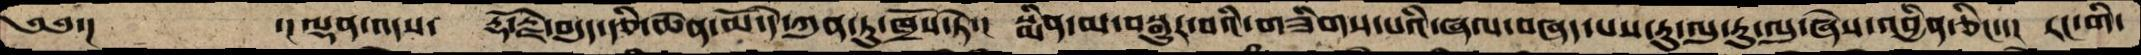༄༅་།         ་།ལྡན་འདས་ རྡོ་རྗེ་བདུད་རྩི་ཆེན་མོ་དེ་ཀུན་ཏུ་ཁྲོས་ཏེ་།  སྨིན་མ་བསྒྱུར་བའི་གཟིགས་པའི་ཞལ་བཞད་པས་རུ་ལུ་རུ་ལུ་ཞེས་འབྱིན་ཅིང་་།  རང་གི་
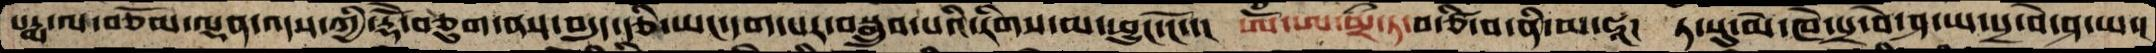པདྨ་ལ་བཅོམ་ལྡན་འདས་ཀྱི་རྡོེ་བཅུག་ནས་བདུད་རྩི་ཡང་དག་པར་བསྒྲུབ་པའི་རིགས་མ་ཕྱུང་ངོ་་།  ཨོཾ་ཨ་མྲྀ་ཏ་བ་ཙི་བ་ནི་མ་ཧཱ།  ཏ་སུ་མེ་ཁེ་པྲ་བེ་ཤ་ཡ་པྲ་བེ་ཤ་ཡ་།
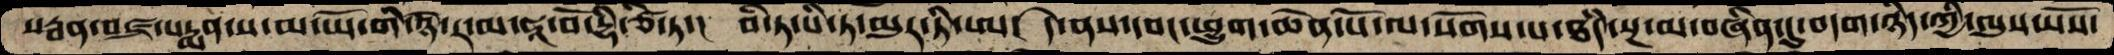སརྦན་བཛྲ་པདྨན་ས་མ་ཡོ་གི་ཉེ་ར་མ་ཧཱ་བོ་ཌྷི་ཙི་ཏ་།  བི་ཏ་པི་ཏ་མུར་ཏི་ཨ།  དེ་ནས་དབང་ཕྱུག་ཆེན་པོ་ལ་སོགས་པ་ཐཾད་སྔ་མ་བཞིན་དུ་བདག་ཉིད་ཀྱི་ལུས་སོས་
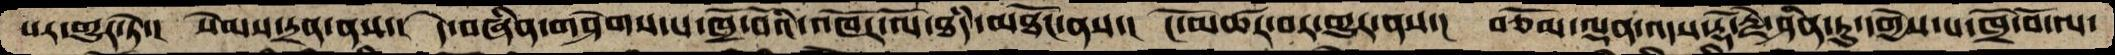པར་གྱུར་ཏེ་།  སེམས་དྲན་ནས་།  དེ་བཞིན་གཤེགས་པ་ཁྲོ་བོའི་འཁོར་ལོ་ཐདཾ་མཐོང་ནས་།  ངོ་མཚར་བར་གྱུར་ནས་།  བཅོམ་ལྡན་འདས་རྡོ་རྗེ་ཤིན་ཏུ་དགྱེས་པ་ཁྲོ་བོ་ལ་
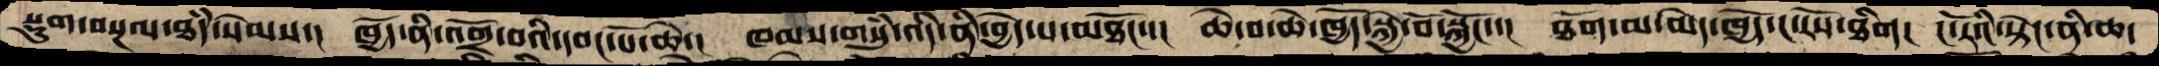སྡུག་བསྔལ་ཐདཾ་སེམས་།  ཁྱོད་ནི་འགྲོ་བའི་དབང་པོ་ཆེ་།  ཁམས་གསུཾ་འདི་ནི་བྱེད་པ་མཐོང་་།  ཆེ་བ་ཆེ་ཁྱོད་སྐྱེ་བོ་སྐྱོང་་།  ཐོག་མ་མེད་ཁྱོད་ང་རོས་ཐིག།  ང་རོའི་སྟེང་ནི་ཆ་
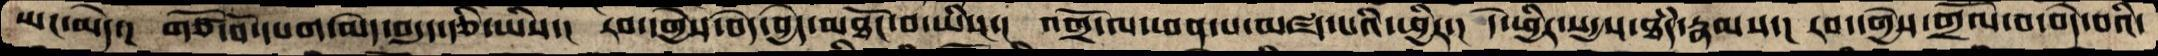ཡང་མེད་།  གཙོ་བོ་དཔག་མེད་བདུད་རྩི་ཡིས་།  རབ་དགྱེས་བདེ་བྱེད་མཐོང་བ་ཡིས་།  འགྲོ་ལ་ཕན་པ་མཛད་པའི་ཕྱིར་།  དེ་ཕྱིར་སདྱས་ཐདཾ་རྣམས་།  རབ་དགྱེས་གྲོལ་བ་བདེ་བའི་
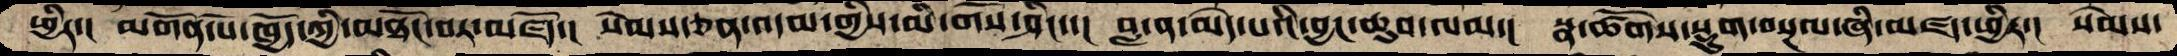ཕྱིར་།  མགོན་པོ་ཁྱོད་ཀྱི་མཐོང་བར་མཛོད་།  སེམས་ཅན་འདམ་གྱིས་མི་གོས་ཤིང་་།  བླ་ན་མེད་པའི་བྱང་ཆུབ་ལམ་།  སྣ་ཚོགས་སྡུག་བསྔལ་ཞི་མཛད་ཕྱིར་།  སེམས་
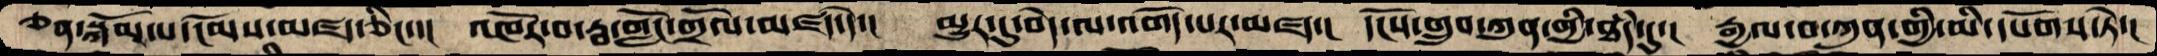ཅན་སྐོམ་པ་ངོམས་མཛད་ཅིང་་།  འཁོར་བ་རྦ་གློང་གྲོལ་མཛད་དེ་།  མྱུར་དུ་བདེ་ལ་འགོད་པར་མཛད་།  དངོས་གྲུབ་ཀུན་གྱི་ཐཾད་དུ་།  རྒྱལ་བ་ཀུན་གྱི་མི་དཔོགས་ཏེ་།
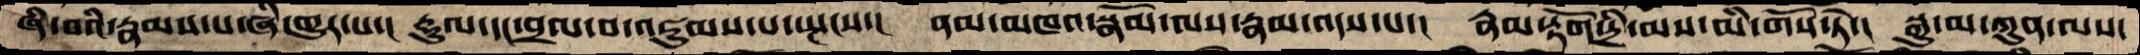ཞི་བའི་རྣམས་པ་ཞི་གྱུར་པ་།  རྡུལ་དང་བྲལ་བ་འཇུམས་པ་སྤངས་།  ནམ་མཁའ་སྒོམ་ལས་རྣམ་འདས་པ་།  རྣམ་རྟོག་དྲི་མས་མི་གོས་ཏེ་།  སྒྱུ་མ་ཀུན་ལས་
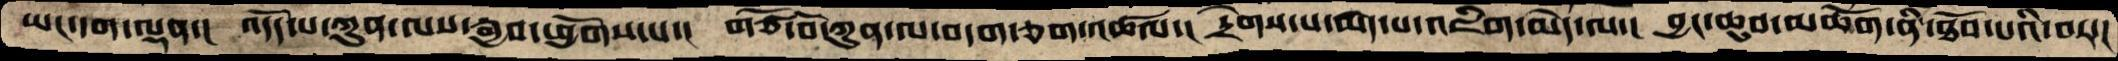ཡང་དག་ལྡན་།  འདོད་པ་ཀུན་ལས་རྒྱབ་ཕྱོགས་པ་།  གཙོ་བོ་ཀུན་ལ་བདག་ཅག་འཚལ་།  དྲེགས་པ་མེད་པ་འཇིག་མེད་ལ་།  བྱང་ཆུབ་མཆོག་ནི་ཐོབ་པའི་བར་།
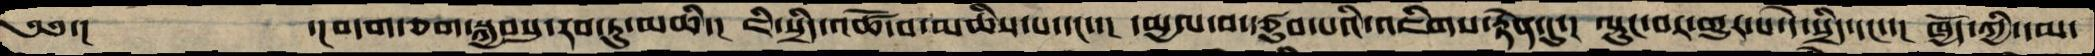༄༅་།         ་།བདག་ཅག་སྐྱབསུ་རབ་ཏུ་མཆི་།  ཇི་སྲིད་འཚོ་བ་མཆིས་པ་དང་་།  དམྱལ་བ་རྩུབ་པའི་འཇིགས་རྟེན་དུ་།  ལྟུང་བར་གྱུར་པ་དེ་སྲིད་དང་་།  ཁྱོད་ཀྱི་དམ་
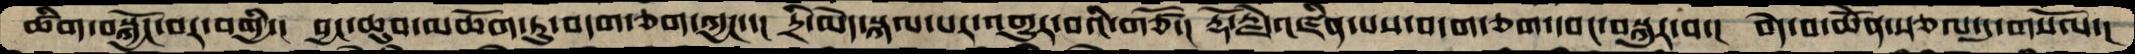ཚིག་བསྐྱོང་བར་བགྱི་།  བྱང་ཆུབ་མཆོག་ཏུ་བདག་ཅག་ཀྱང་་།  དྲི་མེད་སྐལ་པར་འགྱུར་བའི་གཙོ་།  རྡོ་རྗེ་འཛིན་པས་བདག་ཅག་དབང་བསྐུར་བ་།  བདེ་བ་ཆེནོ་སྩལ་དུ་གསོལ་།
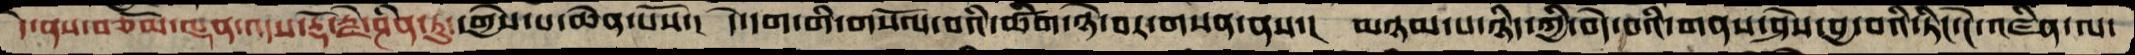དེ་ནས་བཅོམ་ལྡན་འདས་རྡོ་རྗེ་ཤིན་ཏུ་དགྱེས་པ་ཆེན་པོས་།  དེ་དག་གི་གསོལ་བའི་ཚིག་ཉེ་བར་གསན་ནས་།  མཉམ་པ་ཉིད་ཀྱི་བདེ་བའི་གནས་ཤེས་བྱ་བའི་ཏིང་ངེ་འཛིན་ལ་
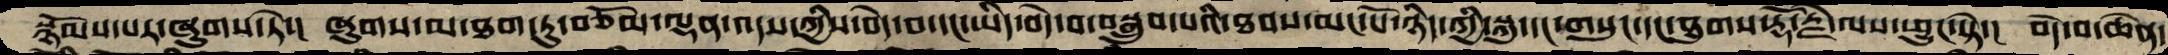སྙོམས་པར་ཞུགས་ཏེ་།  ཞུགས་མ་ཐག་ཏུ་བཅོམ་ལྡན་འདས་ཀྱིས་བདེ་བ་དང་ཡིད་བདེ་བ་བསྒྲུབ་པའི་ཐབས་མང་པོ་ཉིད་ཀྱི་སྐུ་དང་གསུང་དང་ཐུགས་རྡོ་རྗེ་ལས་ཕྱུང་སྟེ་།  བདེ་བ་ཆེན་
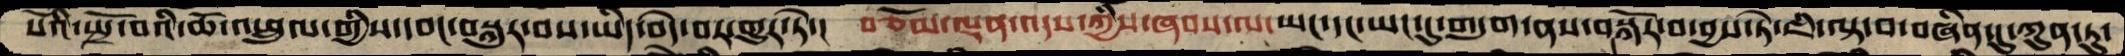པོའི་སྤྲོ་བའི་ཆོ་འཕྲུལ་གྱིས་དབང་བསྐུར་བས་ཡིད་བདེ་བར་གྱུར་ཏེ་།  བཅོམ་ལྡན་འདས་ཀྱིས་ཞབས་ལ་ཡང་དང་ཡང་དུ་གདུག་ནས་བསྐོར་བ་བྱས་ཏེ་ཇི་ལྟ་བ་བཞིན་དུ་ཀུན་ཏུ་
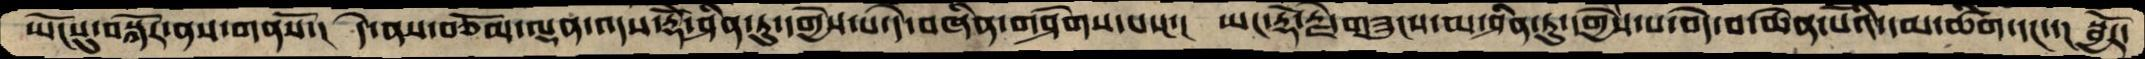ཡོངསུ་བསྐོར་ནས་གནསོ་།  དེ་ནས་བཅོམ་ལྡན་འདས་རྡོེ་ཤིན་ཏུ་དགྱེས་པ་དེ་བཞིན་གཤེགས་པས་།  ཡང་རྡོ་རྗེ་གཟུངས་མ་ཤིན་ཏུ་དགྱེས་པ་བདེ་བ་ཆེན་པོའི་དམ་ཚིག་དང་་།  སྦྱོར་
